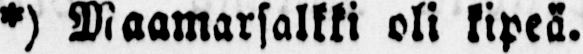*) Maamarsalkki oli kipeä.
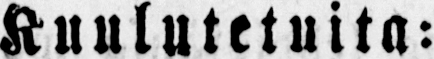Kuulutetuita:
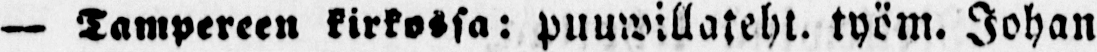— Tampereen kirkossa: puuwillateht. työm. Johan
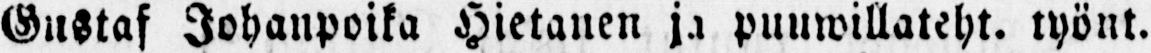Gustaf Johanpoika Hietanen ja puuwillateht. työnt.
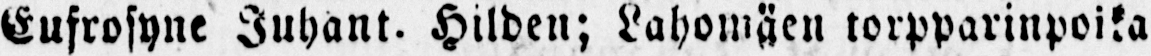Eufrosyne Juhant. Hilden; Lahomäen torpparinpoika
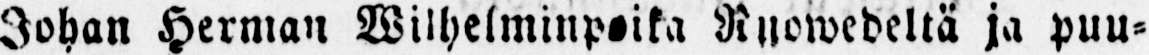Johan Herman Wilhelminpoika Ruowedeltä ja puu-
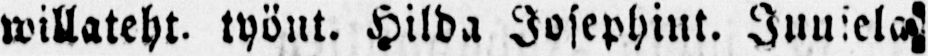willateht. työnt. Hilda Josephint. Juusela
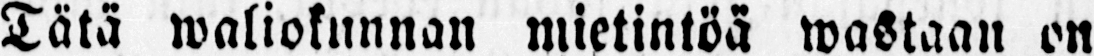Tätä waliokunnan mietintöä wastaan on
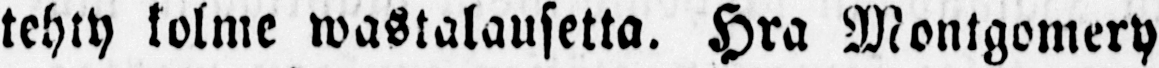tehty kolme wastalausetta. Hra Montgomery
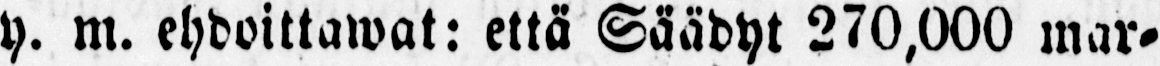y. m. ehdoittawat: että Säädyt 270,000 mar-
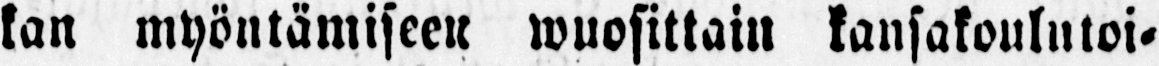kan myöntämiseen wuosittain kansakoulutoi-
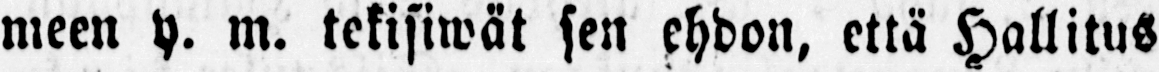meen y. m. tekisiwät sen ehdon, että Hallitus
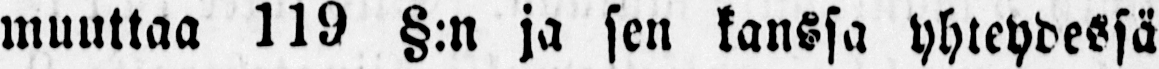muuttaa 119 §:n ja sen kanssa yhteydessä
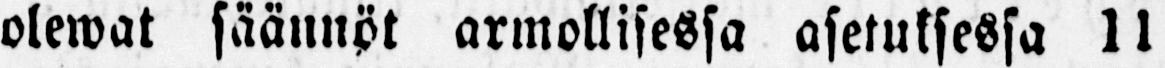olewat säännöt armollisessa asetuksessa 11
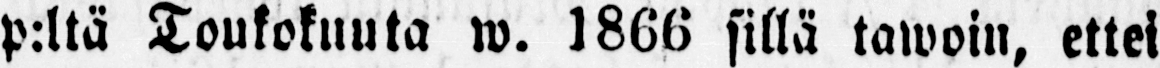p:ltä Toukokuuta w. 1866 sillä tawoin, ettei
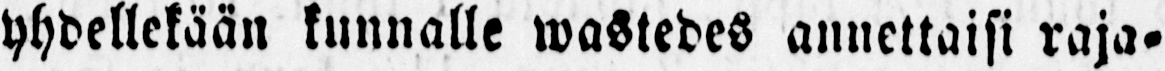yhdellekään kunnalle wastedes annettaisi raja-
